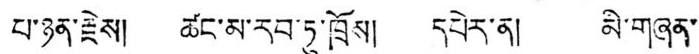པ་ཉན་རྗེས། ཚང་མ་རབ་ཏུ་ཁྲོས། དཔེར་ན། མི་གཞན་
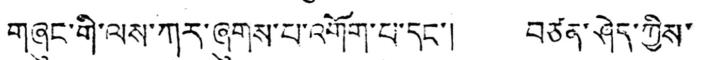གཞུང་གི་ལས་ཀར་ཞུགས་པ་འགོག་པ་དང་། བཙན་ཤེད་ཀྱིས་
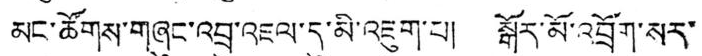མང་ཚོགས་གཞུང་འབྲུ་འཇལ་དུ་མི་འཇུག་པ། སྒོར་མོ་འབྲོག་སར་
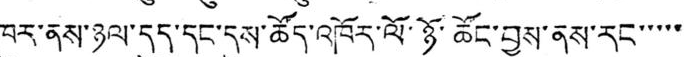ཁུར་ནས་ཉལ་དུད་དང་དུས་ཚོད་འཁོར་ལོ་ཉོ་ཚོང་བྱས་ནས་རང་་་་་
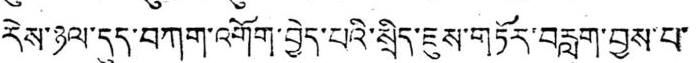རེས་ཉལ་དུད་བཀག་འགོག་བྱེད་པའི་སྲིད་ཇུས་གཏོར་བརླག་བྱས་པ་
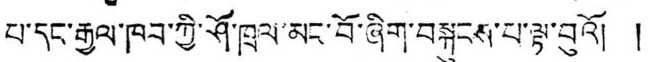པ་དང་རྒྱལ་ཁབ་ཀྱི་ཤོ་ཁྲལ་མང་བོ་ཞིག་བསྐུངས་པ་ལྟ་བུའོ། །
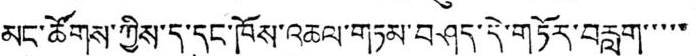མང་ཚོགས་ཀྱིས་ད་དུང་ཁོས་འཆལ་གཏམ་བཤད་དེ་གཏོར་བརླག་་་་་
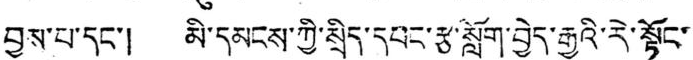བྱས་པ་དང་། མི་དམངས་ཀྱི་སྲིད་དབང་རྩ་སློག་བྱེད་རྒྱུའི་རེ་སྟོང་
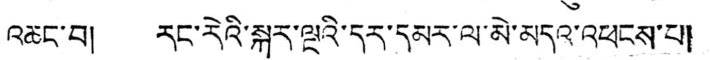འཆང་བ། རང་རེའི་སྐར་ལྔའི་དར་དམར་ལ་མེ་མདའ་འཕངས་པ།
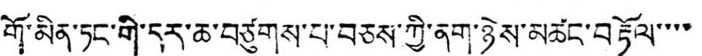གོ་མིན་ཏང་གི་དར་ཆ་བཙུགས་པ་བཅས་ཀྱི་ནག་ཉེས་མཚང་བརྟོལ་་་་
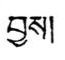བྱས།
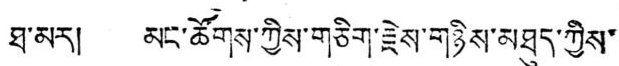ཐ་མར། མང་ཚོགས་ཀྱིས་གཅིག་རྗེས་གཉིས་མཐུད་ཀྱིས་
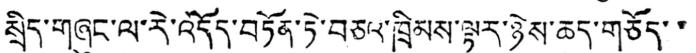སྲིད་གཞུང་ལ་རེ་འདོད་བཏོན་ཏེ་བཅའ་ཁྲིམས་ལྟར་ཉེས་ཆད་གཅོད་་
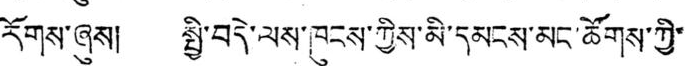རོགས་ཞུས། སྤྱི་བདེ་ལས་ཁུངས་ཀྱིས་མི་དམངས་མང་ཚོགས་ཀྱི་
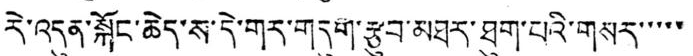རེ་འདུན་སྐོང་ཆེད་ས་དེ་གར་གདུག་རྩུབ་མཐར་ཐུག་པའི་གསར་་་་་
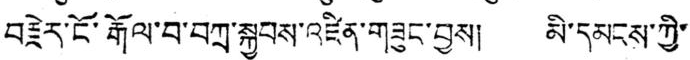བརྗེར་ངོ་རྒོལ་བ་བཀྲ་སྐྱབས་འཛིན་གཟུང་བས། མི་དམངས་ཀྱི་
